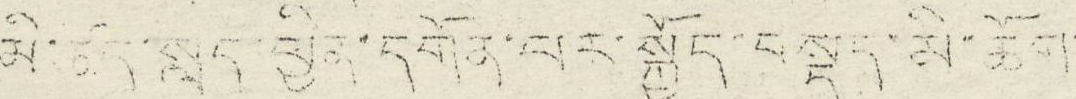མོ་ཚད་སླད་ཕྱིན་དགོན་པར་སྐྱོད་བསྡད་མི་ཆོག་
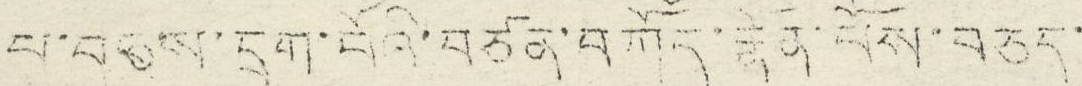པ་བཅས་དྲག་པོའི་བཙན་བཀོད་རྣོན་པོས་བཅད་
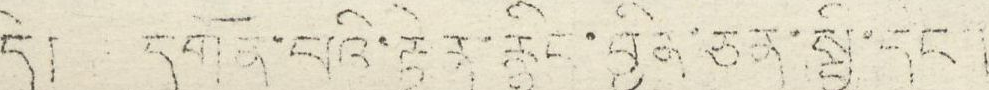དེ། དགོན་པའི་རྟེན་རྙིང་བྱིན་ཅན་སྦྱི་དང་།
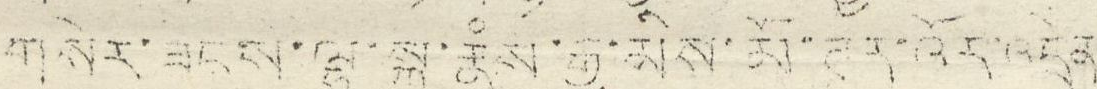གསེར་ཟངས་ལྷ་སྐུ་རྣཾས་རྒྱ་མིས་མོ་ཊར་འོར་འདྲེན
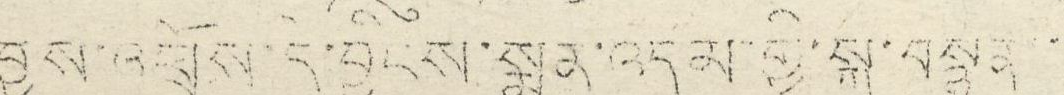བྱས་ཕྲོས་དེ་བྱིངས་སྨན་འདམ་གྱི་སྐུ་བསྙན་་
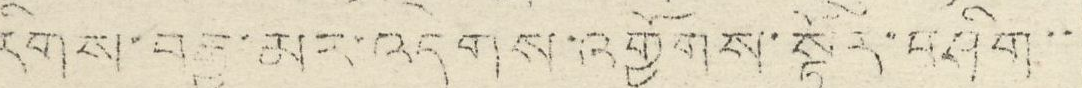རིགས་བརྒྱ་མར་འདེགས་འགྱོགས་སྟོར་བཤིག་་
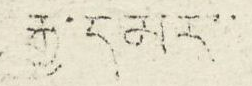རྒྱ་དམར་་
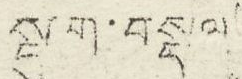སྡུག་བསྔལ
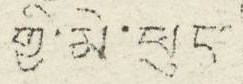གྱི་མེ་ཕུང་
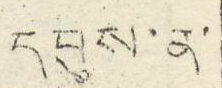དབུས་ན་
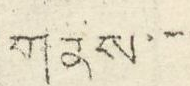གནས་་་་
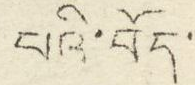པའི་བོད་
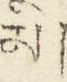མི།
